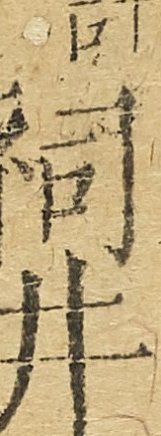祠井
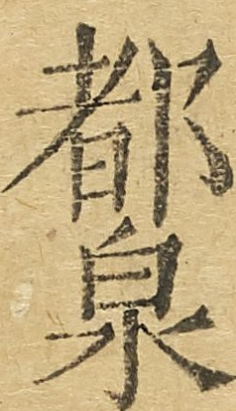都泉
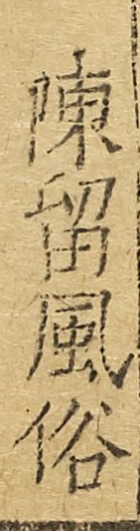陳留風俗
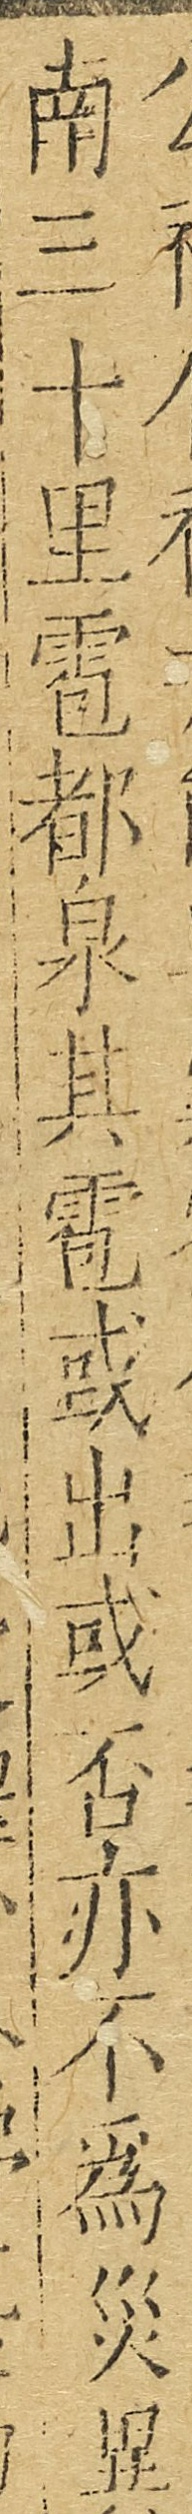南三十里雹都泉其雹或出或否亦不爲災異
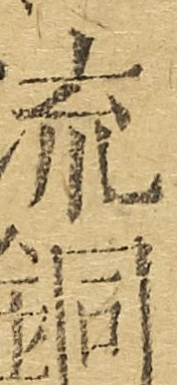流銅
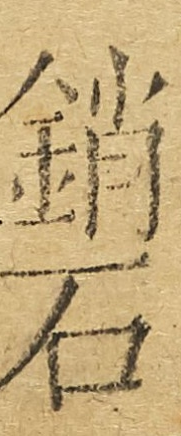銷石
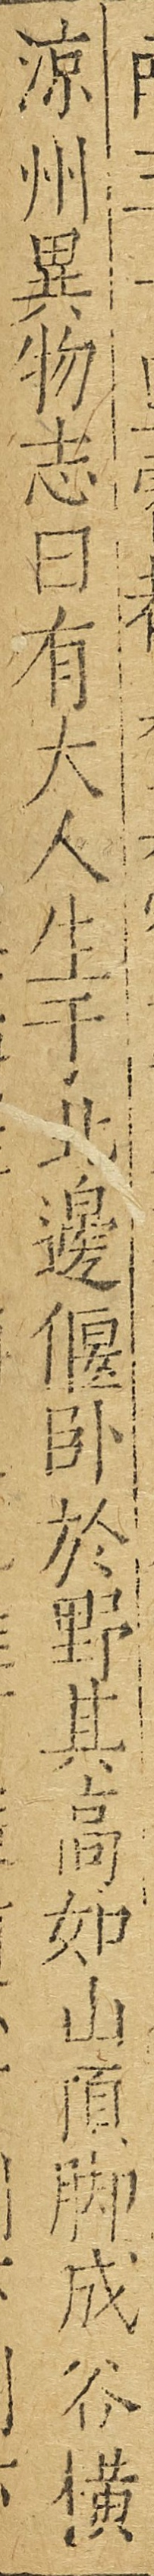涼州異物志曰有大人生於北邊偃臥於野其高如山頓脚成谷橫
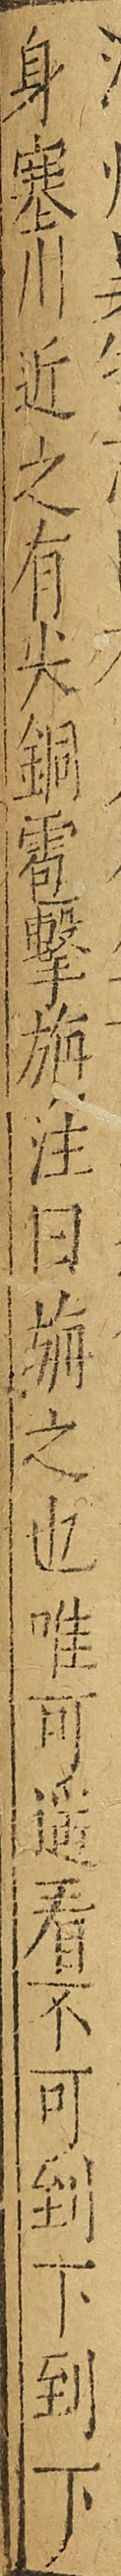身塞川近之有尖銅雹擊旃注曰旃之也唯可遙看不可到下到下
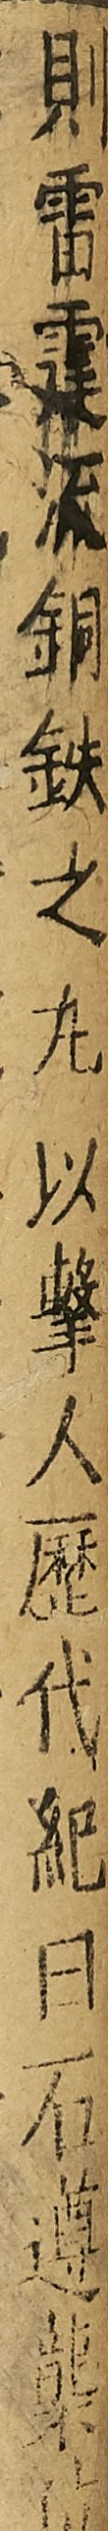則雷霆流銅鐵之丸以擊人歷代紀曰石遵襲位
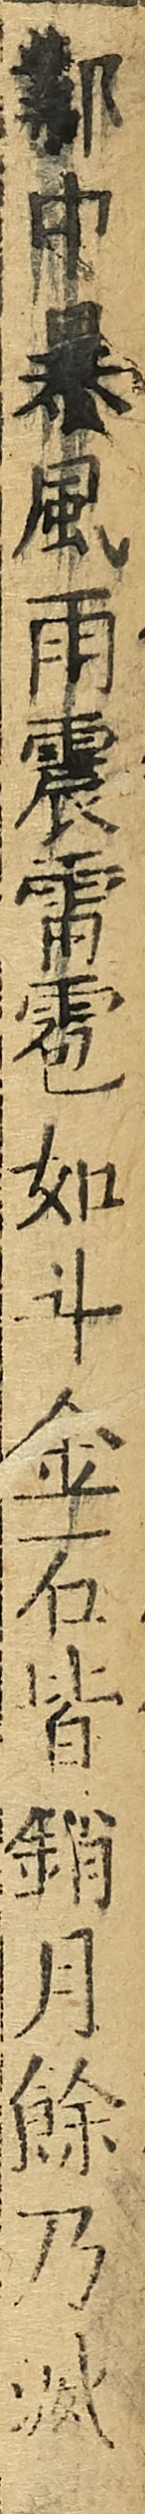鄴中暴風雨震雷雹如鬥金石皆銷月餘乃滅
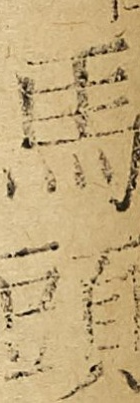馬頭
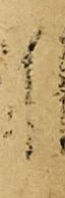雞
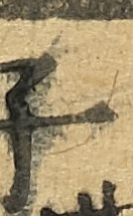子
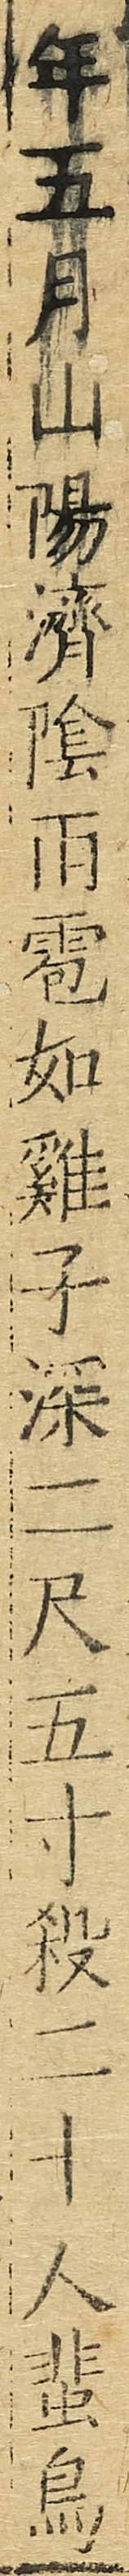年五月山陽濟陰雨雹如雞子深二尺五寸殺二十人蜚鳥
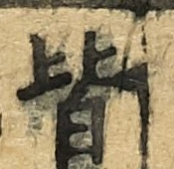皆
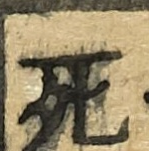死
